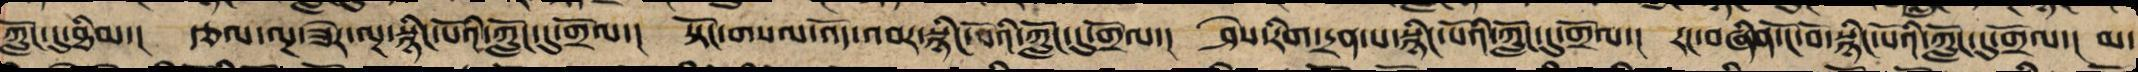ཀློང་དུ་ཐིམ་། རྩལ་ལྔ་ཟེར་ལྔ་སྙིང་པོའི་ཀློང་དུ་གྲོལ་། སྟོང་གསལ་འོད་འབར་སྙིང་པོའི་ཀློང་དུ་གྲོལ་། ཤེས་རིག་དྲན་པ་སྙིང་པོའི་ཀློང་དུ་གྲོལ་། རང་བཞིན་ངོ་བོ་སྙིང་པོའི་ཀློང་དུ་གྲོལ་། མ་
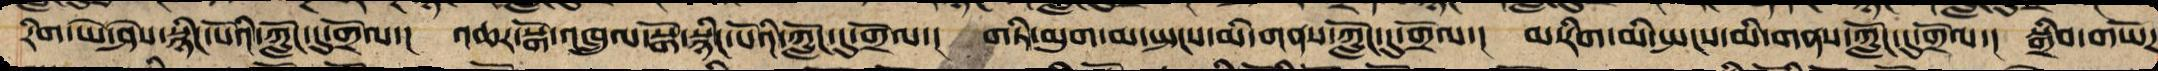རིག་ཡེ་ཤེས་སྙིང་པོའི་ཀློང་དུ་གྲོལ་། འཆར་སྒོ་འཁྲུལ་སྒོ་སྙིང་པོའི་ཀློང་དུ་གྲོལ་། གཏི་མུག་མ་སྤངས་མི་གནས་ཀློང་དུ་གྲོལ་། མ་རིག་མ་སྤངས་མི་གནས་ཀློང་དུ་གྲོལ་། སྒྲིབ་གཡོཌ་
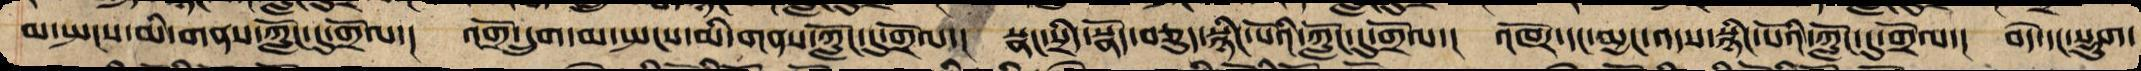མ་སྤངས་མི་གནས་ཀློང་དུ་གྲོལ་། འགྲོ་དྲུག་མ་སྤངས་མི་གནས་ཀློང་དུ་གྲོལ་། སྣང་སྲིད་སྣོད་བཅུད་སྙིང་པོའི་ཀློང་དུ་གྲོལ་། འཁོར་དང་མྱང་འདས་སྙིང་པོའི་ཀློང་དུ་གྲོལ་། བདེ་དང་སྡུག་
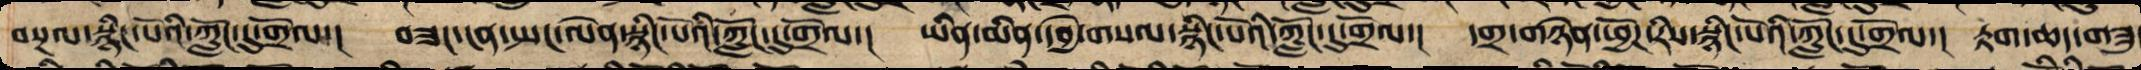བསྔལ་སྙིང་པོའི་ཀློང་དུ་གྲོལ་། བཟང་ངན་སྤང་ལེན་སྙིང་པོའི་ཀློང་དུ་གྲོལ་། ཡིན་མིན་དབྱེ་བསལ་སྙིང་པོའི་ཀློང་དུ་གྲོལ་། དགྲ་གཉེན་ཕྱོཌ་རིས་སྙིང་པོའི་ཀློང་དུ་གྲོལ་། རྟག་ཆད་གཟུ
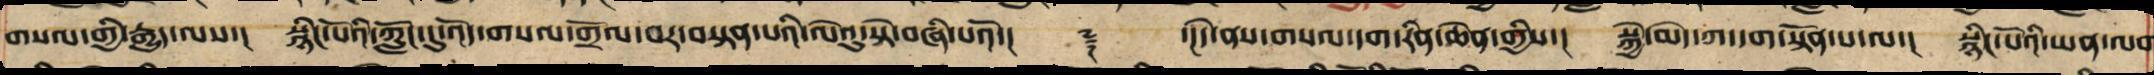གསལ་གྱི་རྒྱུད་ལས་། སྙིང་པོའི་ཀློང་དུ་འོད་གསལ་གྲོལ་བར་བསྟན་པའི་ལེའུ་སྟེ་བཞི་པའོ་།། ༈ ་།།དེ་ནས་གསལ་དག་རིན་ཆེན་གྱིས་། སྐྱེ་མེད་ཀ་དག་སྟོན་པ་ལ་། སྙིང་པོའི་ཡན་ལག་
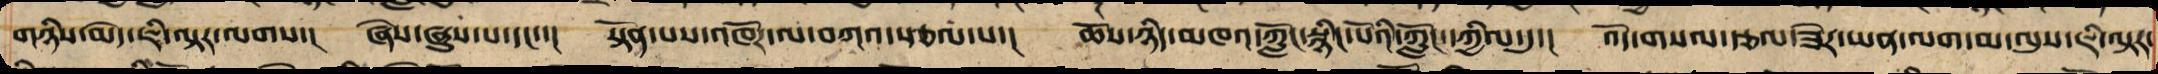གཉིས་མེད་ཇི་ལྟར་ལགས་། ཞེས་ཞུས་པས་། སྟོན་པས་འཁོར་ལ་བཀའ་སྩལ་པ་། ཆོས་ཉིད་མཁའ་ཀློང་སྙིང་པོའི་ཀློང་དཀྱིལ་དུ་། འོད་གསལ་རྩལ་ཟེར་ཡན་ལག་མ་ལུས་ཇི་ལྟར་
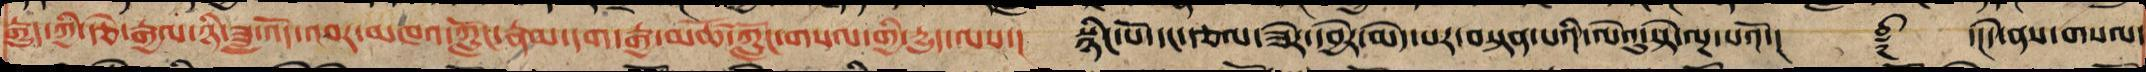རྒྱུད་ཀྱི་རྩེ་རྒྱལ་ཉི་ཟླ་འོད་འབར་མཁའ་ཀློང་རྣམ་དག་རྒྱ་མཚོ་ཀློང་གསལ་གྱི་རྒྱུད་ལས་། སྙིང་པོ་དང་དཙལ་ཟེརདབྱེར་མེད་པར་བསྟན་པའི་ལེའུ་སྟེ་ལྔ་པའོ་།།     ༈    ད།།དེ་ནས་གསལ་
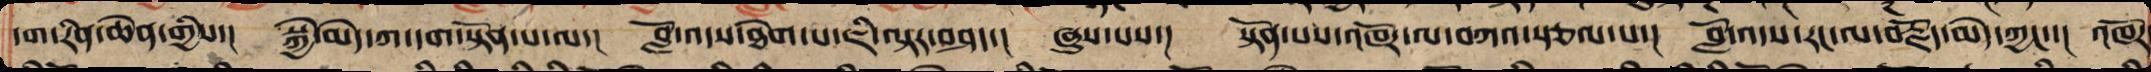དག་རིན་ཆེན་གྱིས་།  སྐྱེ་མེད་ཀ་དག་སྟོན་པ་ལ་།  བློ་འདས་ཐེག་པ་ཇི་ལྟར་བཤད་།  ཞུས་པས་། སྟོན་པས་འཁོར་ལ་བཀའ་སྩལ་པ་།  བློ་འདས་རང་ལ་བརྗོད་མེད་ཀྱང་་།  འཁོར
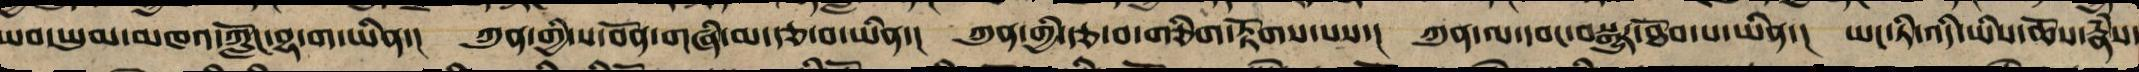ཡབ་ཡུམ་མཁའ་ཀློང་བྷ་ག་ཡིན་། ཀུན་གྱི་ས་བོན་གཞི་མ་རྩ་བ་ཡིན་། ཀུན་གྱི་རྩ་བ་གཅིག་རྟོགས་པས་། ཀུན་ལ་དབང་བསྒྱུར་ཐོབ་པ་ཡིན་། ཡང་ཏི་འདི་ཡིས་ཆོས་རྣཾས་
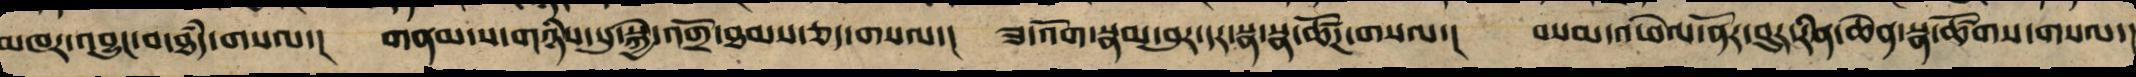མཁར་འབྱུང་བ་ཐཾད་གསལ་། གནམ་ས་གཉིས་སུ་སྐྱེ་འགྲོ་ཐམས་ཅད་གསལ་། ཟ་འོག་སྣམ་བུར་དར་སྣ་སྣ་ཚོཌ་གསལ་། བསམ་འཕེལ་ནོར་བུར་རིན་ཆེན་སྣ་ཚོགས་གསལ་།
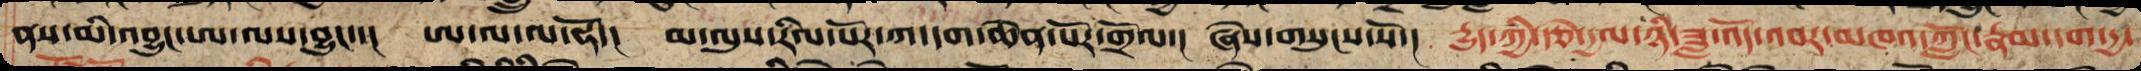ནས་མི་འབྱུང་ཨ་ལས་བྱུང་་། ཨ་ལ་ལ་ཧོ་། མ་ལུས་རིལ་པོར་ཀ་དག་ཆེན་པོར་གྲོལ་། ཞེས་གསུངས་སོ་། རྒྱུད་ཀྱི་རྩེ་རྒྱལ་ཉི་ཟླ་འོད་འབར་མཁའ་ཀློང་རྣམ་དག་དྱ་
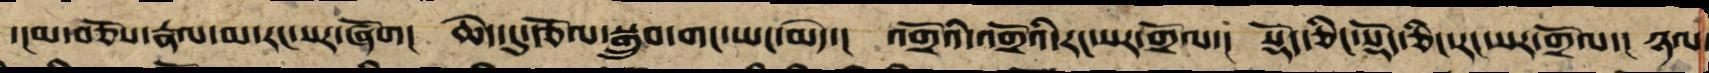་།མ་བཅོས་རྣལ་མ་རང་སར་ཞོག།  ཆེད་དུ་རྩོལ་སྒྲུབ་གང་ཡང་མེད་།  འགྲོའི་འགྲོའི་རང་སར་གྲོལ་།  སྡོད་ཅིང་སྡོད་ཅིང་རང་སར་གྲོལ།  ཉལ་
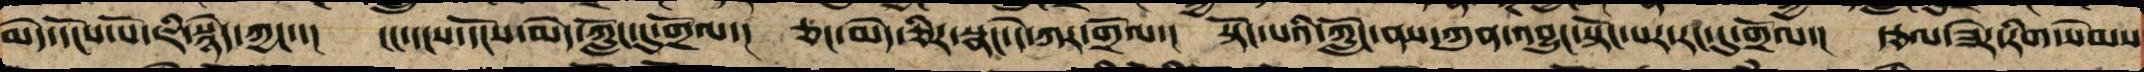མེད་དངོས་པོ་ཇི་སྙེད་ཀྱང་་། །ང་དངས་དངོས་མེད་ཀློང་དུ་གྲོལ་།  ཅང་མེད་ཅིར་སྣང་དེ་ཀར་གྲོལ་།  སྟོང་པའི་ཀློང་ནས་ཀུན་འབྱུང་སྟོང་པར་རང་དུ་གྲོལ་།  རྩལ་ཟེར་རིག་སེམས
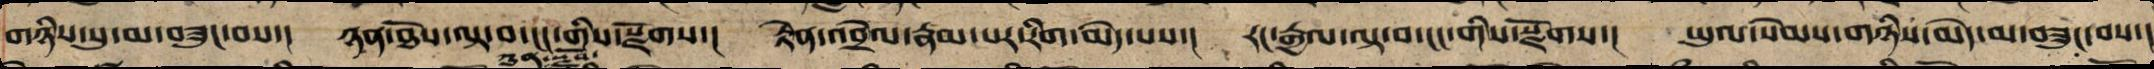གཉིས་སུ་མ་བཟུང་བས་། ཉན་ཐོས་ལྟ་བ་ངང་གིས་སྫོགས་། རྟེན་འབྲེལ་རྣམ་པར་རིག་མེད་པས་། རང་རྒྱལ་ལྟ་བ་ངང་གིས་སྫོགས་། ཡུལ་སེམས་གཉིས་མེད་མ་བཟུང་བས་།
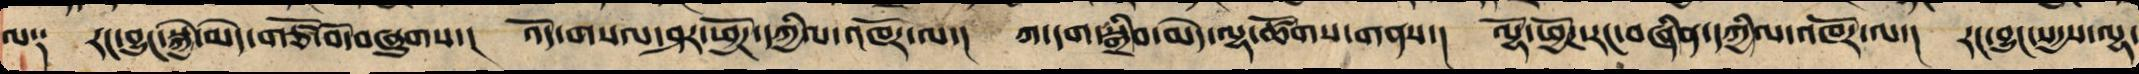ལ༑ རང་བྱུང་སྐྱེ་མེད་གཙོ་བོ་བཞུགས་། འོད་གསལ་ཤར་ཕྱོཌ་དཀྱིལ་འཁོར་ལ་། ཀ་དག་སྒྲིབ་མེད་ལྷ་ཚོགས་གནས་། ལྷོ་ཕྱོཌ་རང་བཞིན་དཀྱིལ་འཁོར་ལ་། རང་བྱུང་སདྱས་ལྷ་
